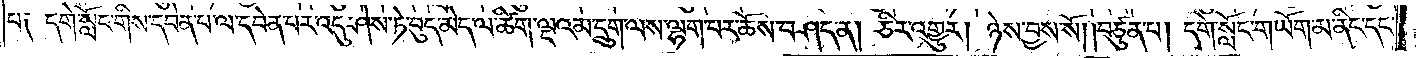པ༑ དགེ་སློང་གིས་དབེན་པ་ལ་དབེན་པར་འདུ་ཤེས་ཏེ་བུད་མེད་ལ་ཚིག་ལྔའམ་དྲུག་ལས་ལྷག་པར་ཆོས་བཤད་ན། ཅིར་འགྱུར། ཉེས་བྱས་སོ། །བཙུན་པ། དགེ་སློང་གཡོག་མ་ནིང་དང་
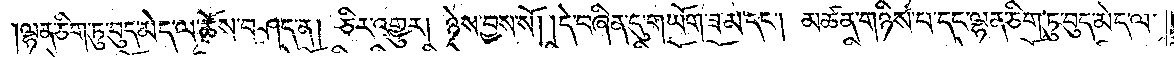།ལྷན་ཅིག་ཏུ་བུད་མེད་ལ་ཆོས་བཤད་ན། ཅིར་འགྱུར། ཉེས་བྱས་སོ། །དེ་བཞིན་དུ་གཡོག་ཟ་མ་དང༌། མཚན་གཉིས་པ་དང་ལྷན་ཅིག་ཏུ་བུད་མེད་ལ་
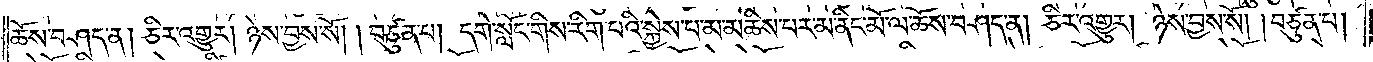ཆོས་བཤད་ན། ཅིར་འགྱུར། ཉེས་བྱས་སོ། །བཙུན་པ། དགེ་སློང་གིས་རིག་པའི་སྐྱེས་པ་མ་མཆིས་པར་མ་ནིང་མོ་ལ་ཆོས་བཤད་ན། ཅིར་འགྱུར། ཉེས་བྱས་སོ། །བཙུན་པ།
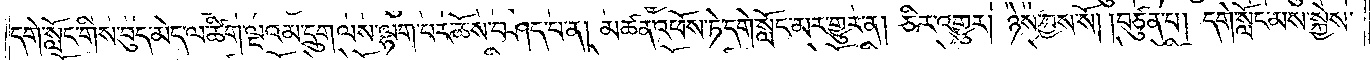དགེ་སློང་གིས་བུད་མེད་ལ་ཚིག་ལྔའམ་དྲུག་ལས་ལྷག་པར་ཆོས་བཤད་པ་ན། མཚན་འཕོས་ཏེ་དགེ་སློང་མར་གྱུར་ན། ཅིར་འགྱུར། ཉེས་བྱས་སོ། །བཙུན་པ། དགེ་སློང་མས་སྐྱེས་
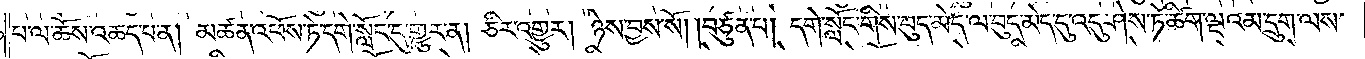པ་ལ་ཆོས་འཆད་པ་ན། མཚན་འཕོས་ཏེ་དགེ་སློང་དུ་གྱུར་ན། ཅིར་འགྱུར། ཉེས་བྱས་སོ། །བཙུན་པ། དགེ་སློང་གིས་བུད་མེད་ལ་བུད་མེད་དུ་འདུ་ཤེས་ཏེ་ཚིག་ལྔའམ་དྲུག་ལས་
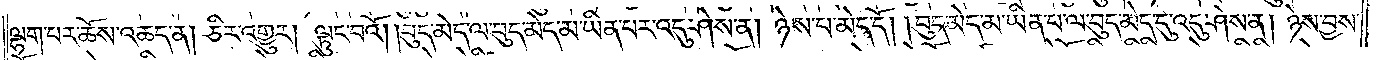ལྷག་པར་ཆོས་འཆད་ན། ཅིར་འགྱུར། ལྟུང་བའོ། །བུད་མེད་ལ་བུད་མེད་མ་ཡིན་པར་འདུ་ཤེས་ན། ཉེས་པ་མེད་དོ། །བུད་མེད་མ་ཡིན་པ་ལ་བུད་མེད་དུ་འདུ་ཤེས་ན། ཉེས་བྱས་
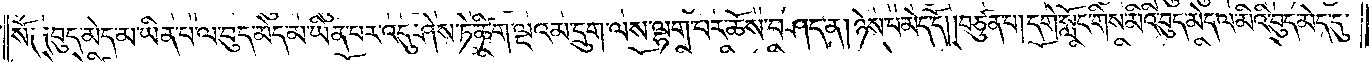སོ༑ ༑བུད་མེད་མ་ཡིན་པ་ལ་བུད་མེད་མ་ཡིན་པར་འདུ་ཤེས་ཏེ་ཚིག་ལྔའམ་དྲུག་ལས་ལྷག་པར་ཆོས་བཤད་ན། ཉེས་པ་མེད་དོ། །བཙུན་པ། དགེ་སློང་གིས་མིའི་བུད་མེད་ལ་མིའི་བུད་མེད་དུ་
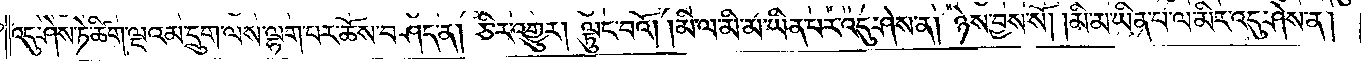འདུ་ཤེས་ཏེ་ཚིག་ལྔའམ་དྲུག་ལས་ལྷག་པར་ཆོས་བཤད་ན། ཅིར་འགྱུར། ལྟུང་བའོ། །མི་ལ་མི་མ་ཡིན་པར་འདུ་ཤེས་ན། ཉེས་བྱས་སོ། །མི་མ་ཡིན་པ་ལ་མིར་འདུ་ཤེས་ན།
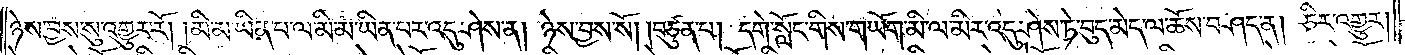ཉེས་བྱས་སུ་འགྱུར་རོ། །མི་མ་ཡིན་པ་ལ་མི་མ་ཡིན་པར་འདུ་ཤེས་ན། ཉེས་བྱས་སོ། །བཙུན་པ། དགེ་སློང་གིས་གཡོག་མི་ལ་མིར་འདུ་ཤེས་ཏེ་བུད་མེད་ལ་ཆོས་བཤད་ན། ཅིར་འགྱུར།
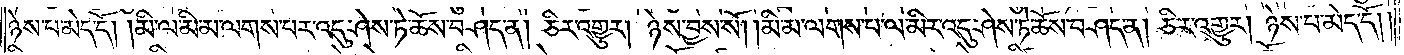ཉེས་པ་མེད་དོ། །མི་ལ་མི་མ་ལགས་པར་འདུ་ཤེས་ཏེ་ཆོས་བཤད་ན། ཅིར་འགྱུར། ཉེས་བྱས་སོ། །མི་མ་ལགས་པ་ལ་མིར་འདུ་ཤེས་ཏེ་ཆོས་བཤད་ན། ཅིར་འགྱུར། ཉེས་པ་མེད་དོ།
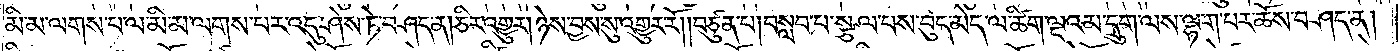མི་མ་ལགས་པ་ལ་མི་མ་ལགས་པར་འདུ་ཤེས་ཏེ་བཤད་ན། ཅིར་འགྱུར། ཉེས་བྱས་སུ་འགྱུར་རོ། །བཙུན་པ། བསླབ་པ་སྩལ་པས་བུད་མེད་ལ་ཚིག་ལྔའམ་དྲུག་ལས་ལྷག་པར་ཆོས་བཤད་ན།
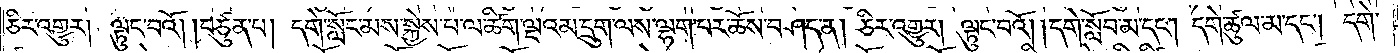ཅིར་འགྱུར། ལྟུང་བའོ། །བཙུན་པ། དགེ་སློང་མས་སྐྱེས་པ་ལ་ཚིག་ལྔའམ་དྲུག་ལས་ལྷག་པར་ཆོས་བཤད་ན། ཅིར་འགྱུར། ལྟུང་བའོ། །དགེ་སློབ་མ་དང༌། དགེ་ཚུལ་མ་དང༌། དགེ་
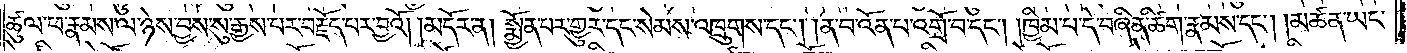ཚུལ་ཕ་རྣམས་ལ་ཉེས་བྱས་སུ་རྒྱས་པར་བརྗོད་པར་བྱའོ།    །མདོར་ན། སྨྱོན་པར་གྱུར་དང་སེམས་འཁྲུགས་དང༌། །ན་བ་འོན་པ་འགྲོ་བ་དང༌། །ཁྱིམ་པ་དེ་བཞིན་ཚིག་རྣམས་དང༌། །མཚན་ཡང་
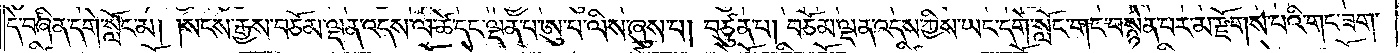དེ་བཞིན་དགེ་སློང་མ། །སངས་རྒྱས་བཅོམ་ལྡན་འདས་ལ་ཚེ་དང་ལྡན་པ་ཨུ་པ་ལིས་ཞུས་པ། བཙུན་པ། བཅོམ་ལྡན་འདས་ཀྱིས་ཡང་དགེ་སློང་གང་བསྙེན་པར་མ་རྫོགས་པའི་གང་ཟག་
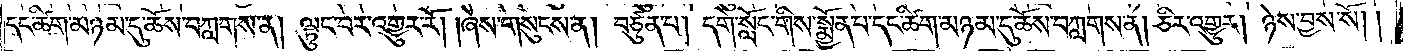དང་ཚིག་མཉམ་དུ་ཆོས་བཀླགས་ན། ལྟུང་བར་འགྱུར་རོ། །ཞེས་གསུངས་ན། བཙུན་པ། དགེ་སློང་གིས་སྨྱོན་པ་དང་ཚིག་མཉམ་དུ་ཆོས་བཀླགས་ན། ཅིར་འགྱུར། ཉེས་བྱས་སོ། །
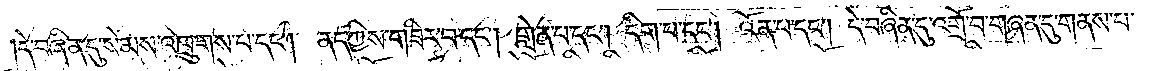།དེ་བཞིན་དུ་སེམས་འཁྲུགས་པ་དང༌། ནད་ཀྱིས་གཟིར་བ་དང༌། གླེན་པ་དང༌། དིག་པ་དང༌། འོན་པ་དང༌། དེ་བཞིན་དུ་འགྲོ་བ་གཞན་དུ་གནས་པ་
